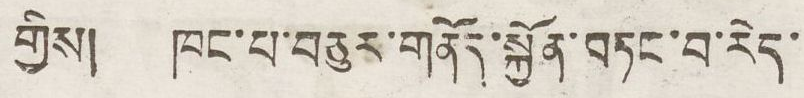གྱིས། ཁང་པ་བཅུར་གནོད་སྐྱོན་བཏང་བ་རེད་
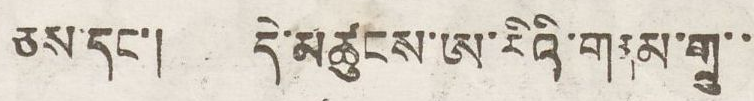ཅས་དང་། དེ་མཚུངས་ཨ་རིའི་གནམ་གྲུ་་
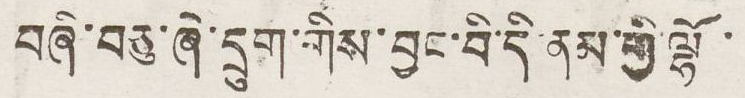བཞི་བཅུ་ཞེ་དྲུག་གིས་བྱུང་བི་དི་ནམ་གྱི་ལྷོ་
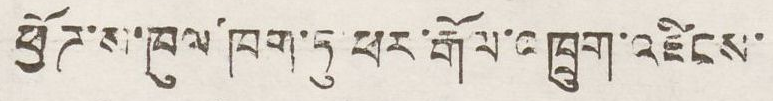ཕྱོཊ་ས་ཁུལ་ཁག་ཏུ་ཕར་རྒོལ་འཁྲུག་འཛིངས་
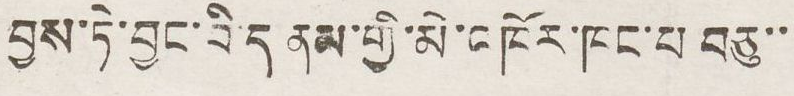བྱས་ཏེ་བྱང་བི་ད་ནམ་གྱི་མེ་འཁོར་ཁང་བཅུ་་
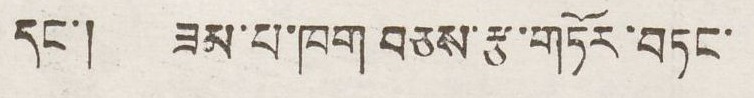དང་། ཟམ་པ་ཁག བཅས་རྩ་གཏོར་བཏང་
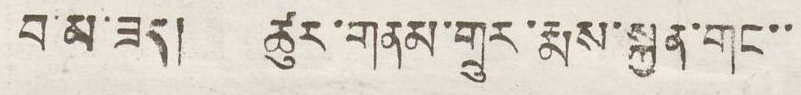བ་མ་ཟད། ཚུར་གནམ་གྲུར་རྨས་སྐྱུན་གང་་
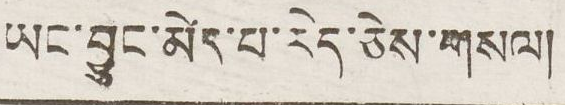ཡང་བྱུང་མེད་པ་རེད་ཅེས་གསལ།
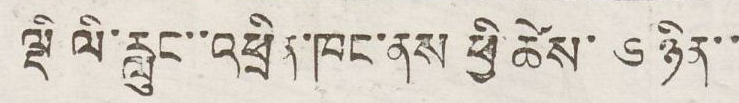ལྡི ལི་རླུང་་འཕྲིན་ཁང་ནས ཕྱི་ཚེས་ ༦ ཉིན་་
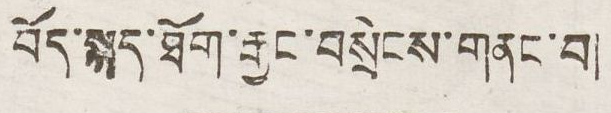བོད་སྐད་ཐོག་རྒྱང་བསྲེངས་གནང་བ།
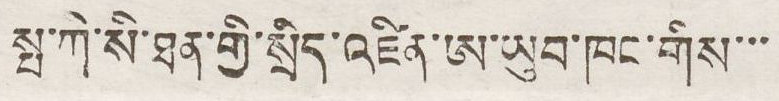སྤ་ཀེ་སི་ཐན་གྱི་སྲིད་འཛིན་ཨ་ཡུབ་ཁང་གིས་་་
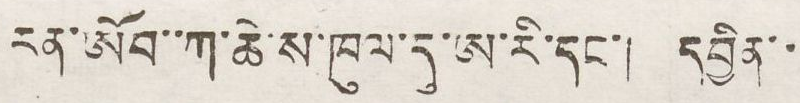རན་ཨོབ་ཀ་ཆེ་ས་ཁུལ་དུ་ཨ་རི་དང་། དབྱིན་་
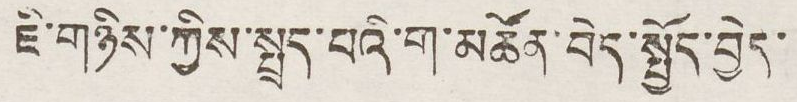ཇི་གཉིས་ཀྱིས་སྤྲད་པའི་ག་མཚོན་བེདེ་སྤྱོད་བྱེད་
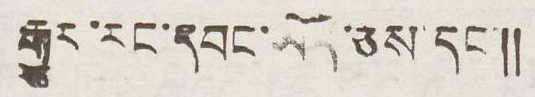རྒྱུར་རང་དབང་ཡོད་ཅས་དང་།།
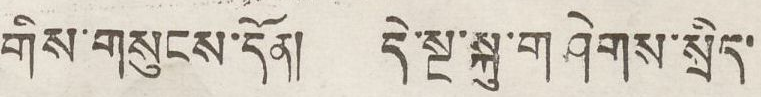གིས་གསུངས་དོན། དེ་སྔ་སྐུ་གཤེགས་སྲིད་
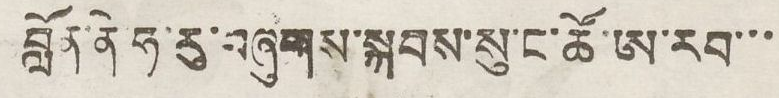བློན་ནེ་ཧ་རུ་བཞུགས་སྐབས་སུ་ང་ཚོ་ཨ་རབ་་་
